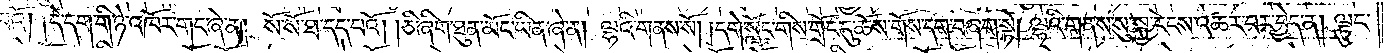པའོ། །དེ་དག་གི་ཉེ་འཁོར་གང་ཞེ་ན། སོ་སོ་ཐ་དད་པའོ། །ཅི་ཞིག་ཐུན་མོང་ཡིན་ཞེ་ན། ལྷའི་གནས་སོ། །དགེ་སློང་གིས་གྲོང་དུ་ཆོས་གོས་དག་བཞག་སྟེ། ལྷའི་གནས་སུ་སྐྱ་རེངས་འཆར་བར་བྱེད་ན། ལྟུང་
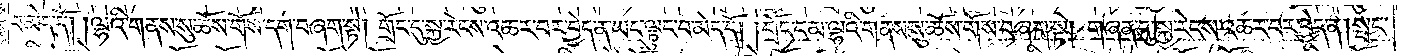བ་མེད་དོ། །ལྷའི་གནས་སུ་ཆོས་གོས་དག་བཞག་སྟེ། གྲོང་དུ་སྐྱ་རེངས་འཆར་བར་བྱེད་ན་ཡང་ལྟུང་བ་མེད་དོ། །གྲོང་ངམ་ལྷའི་གནས་སུ་ཆོས་གོས་བཞག་སྟེ། གཞན་དུ་སྐྱ་རེངས་འཆར་བར་བྱེད་ན། སྤང་
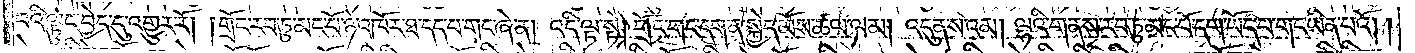བའི་ལྟུང་བྱེད་དུ་འགྱུར་རོ། །གྲོང་རབ་ཏུ་མང་པོ་ཉེ་འཁོར་ཐ་དད་པ་གང་ཞེ་ན། འདི་ལྟ་སྟེ། གྲོང་གང་དག་ན་སྐྱེད་མོས་ཚལ་ལམ། འདུན་ས་འམ། ལྷའི་གནས་རབ་ཏུ་མང་པོ་དག་ཡོད་པ་གང་ཡིན་པའོ། །
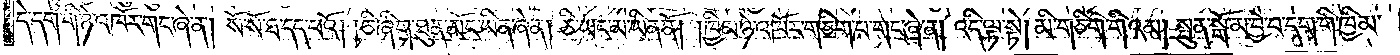དེ་དག་གི་ཉེ་འཁོར་གང་ཞེ་ན། སོ་སོ་ཐ་དད་པའོ། །ཅི་ཞིག་ཐུན་མོང་ཡིན་ཞེ་ན། ཅི་ཡང་མ་ཡིན་ནོ། །ཁྱིམ་ཉེ་འཁོར་གཅིག་པ་གང་ཞེ་ན། འདི་ལྟ་སྟེ། མི་གཅིག་གིའམ། སྤུན་སྒོ་མ་བྱེ་བ་དག་གི་ཁྱིམ་
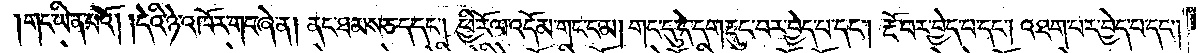གང་ཡིན་པའོ། །དེའི་ཉེ་འཁོར་གང་ཞེ་ན། ནང་ཐམས་ཅད་དང༌། ཕྱི་རོལ་འདོམ་གང་ངམ། གང་དུ་དེ་དག་རྡུང་བར་བྱེད་པ་དང༌། རྔོ་བར་བྱེད་པ་དང༌། འཐག་པར་བྱེད་པ་དང༌།
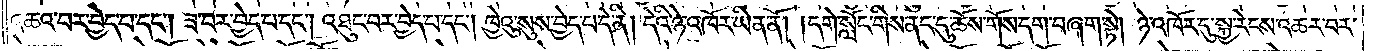འཆའ་བར་བྱེད་པ་དང༌། ཟ་བར་བྱེད་པ་དང༌། འཐུང་བར་བྱེད་པ་དང༌། ཁྱེའུ་སུས་བྱེད་པ་དེ་ནི། དེའི་ཉེ་འཁོར་ཡིན་ནོ། །དགེ་སློང་གིས་ནང་དུ་ཆོས་གོས་དག་བཞག་སྟེ། ཉེ་འཁོར་དུ་སྐྱ་རེངས་འཆར་བར་
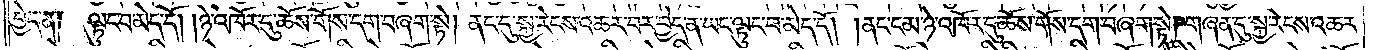བྱེད་ན། ལྟུང་བ་མེད་དོ། །ཉེ་འཁོར་དུ་ཆོས་གོས་དག་བཞག་སྟེ། ནང་དུ་སྐྱ་རེངས་འཆར་བར་བྱེད་ན་ཡང་ལྟུང་བ་མེད་དོ། །ནང་ངམ་ཉེ་འཁོར་དུ་ཆོས་གོས་དག་བཞག་སྟེ། གཞན་དུ་སྐྱ་རེངས་འཆར་
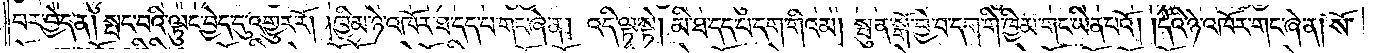བར་བྱེད་ན། སྤང་བའི་ལྟུང་བྱེད་དུ་འགྱུར་རོ། །ཁྱིམ་ཉེ་འཁོར་ཐ་དད་པ་གང་ཞེ་ན། འདི་ལྟ་སྟེ། མི་ཐ་དད་པ་དག་གིའམ། སྤུན་སྒོ་བྱེ་བ་དག་གི་ཁྱིམ་གང་ཡིན་པའོ། །དེའི་ཉེ་འཁོར་གང་ཞེ་ན། སོ་
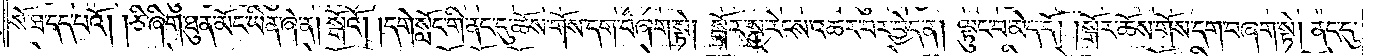སོ་ཐ་དད་པའོ། །ཅི་ཞིག་ཐུན་མོང་ཡིན་ཞེ་ན། སྒོའོ། །དགེ་སློང་གི་ནང་དུ་ཆོས་གོས་དག་བཞག་སྟེ། སྒོར་སྐྱ་རེངས་འཆར་བར་བྱེད་ན། ལྟུང་བ་མེད་དོ། །སྒོར་ཆོས་གོས་དག་བཞག་སྟེ། ནང་དུ་
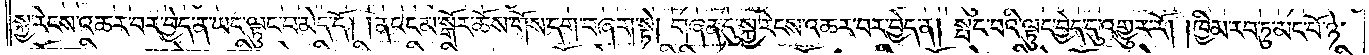སྐྱ་རེངས་འཆར་བར་བྱེད་ན་ཡང་ལྟུང་བ་མེད་དོ། །ནང་ངམ་སྒོར་ཆོས་གོས་དག་བཞག་སྟེ། གཞན་དུ་སྐྱ་རེངས་འཆར་བར་བྱེད་ན། སྤང་བའི་ལྟུང་བྱེད་དུ་འགྱུར་རོ། །ཁྱིམ་རབ་ཏུ་མང་པོ་ཉེ་
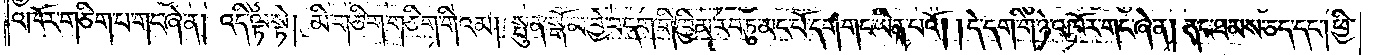འཁོར་གཅིག་པ་གང་ཞེ་ན། འདི་ལྟ་སྟེ། མི་གཅིག་གཅིག་གིའམ། སྤུན་སྒོ་མ་བྱེ་བ་དག་གི་ཁྱིམ་རབ་ཏུ་མང་པོ་དག་གང་ཡིན་པའོ། །དེ་དག་གི་ཉེ་འཁོར་གང་ཞེ་ན། ནང་ཐམས་ཅད་དང༌། ཕྱི་
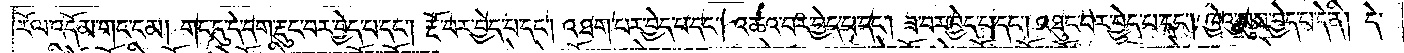རོལ་འདོམ་གང་ངམ། གང་དུ་དེ་དག་རྡུང་བར་བྱེད་པ་དང༌། རྔོ་བར་བྱེད་པ་དང༌། འཐག་པར་བྱེད་པ་དང༌། འཆའ་བར་བྱེད་པ་དང༌། ཟ་བར་བྱེད་པ་དང༌། འཐུང་བར་བྱེད་པ་དང༌། ཁྱེའུ་སུས་བྱེད་པ་དེ་ནི། དེ་
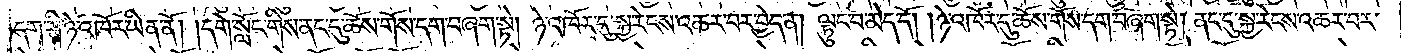དག་གི་ཉེ་འཁོར་ཡིན་ནོ། །དགེ་སློང་གིས་ནང་དུ་ཆོས་གོས་དག་བཞག་སྟེ། ཉེ་འཁོར་དུ་སྐྱ་རེངས་འཆར་བར་བྱེད་ན། ལྟུང་བ་མེད་དོ། །ཉེ་འཁོར་དུ་ཆོས་གོས་དག་བཞག་སྟེ། ནང་དུ་སྐྱ་རེངས་འཆར་བར་
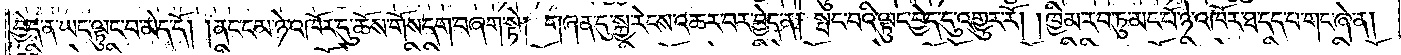བྱེད་ན་ཡང་ལྟུང་བ་མེད་དོ། །ནང་ངམ་ཉེ་འཁོར་དུ་ཆོས་གོས་དག་བཞག་སྟེ། གཞན་དུ་སྐྱ་རེངས་འཆར་བར་བྱེད་ན། སྤང་བའི་ལྟུང་བྱེད་དུ་འགྱུར་རོ། །ཁྱིམ་རབ་ཏུ་མང་པོ་ཉེ་འཁོར་ཐ་དད་པ་གང་ཞེ་ན།
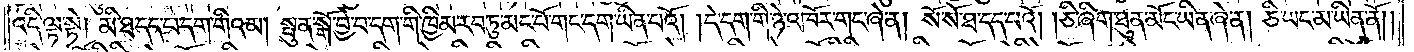འདི་ལྟ་སྟེ། མི་ཐ་དད་པ་དག་གིའམ། སྤུན་སྒོ་བྱེ་བ་དག་གི་ཁྱིམ་རབ་ཏུ་མང་པོ་གང་དག་ཡིན་པའོ། །དེ་དག་གི་ཉེ་འཁོར་གང་ཞེ་ན། སོ་སོ་ཐ་དད་པའོ། །ཅི་ཞིག་ཐུན་མོང་ཡིན་ཞེ་ན། ཅི་ཡང་མ་ཡིན་ནོ༎
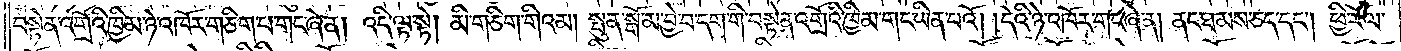བསྟེན་འགྲོའི་ཁྱིམ་ཉེ་འཁོར་གཅིག་པ་གང་ཞེ་ན། འདི་ལྟ་སྟེ། མི་གཅིག་གིའམ། སྤུན་སྒོ་མ་བྱེ་བ་དག་གི་བསྟེན་འགྲོའི་ཁྱིམ་གང་ཡིན་པའོ། །དེའི་ཉེ་འཁོར་གང་ཞེ་ན། ནང་ཐམས་ཅད་དང༌། ཕྱི་རོལ་
